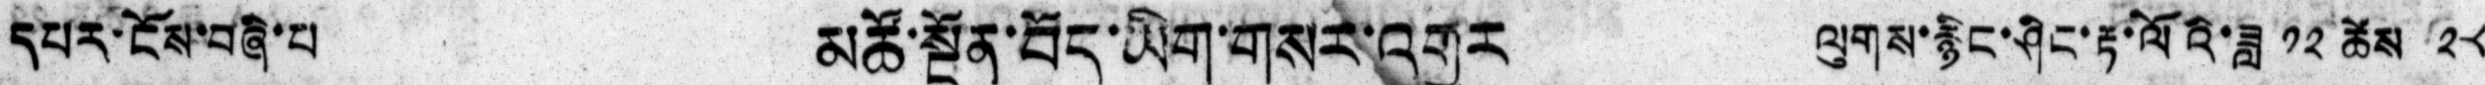དཔར་ངོས་བཞི་པ   མཚོ་སྔོན་བོད་ཡིག་གསར་འགྱུར  ལུགས་རྙིང་ཤིང་རྟ་ལོའི་ཟླ ༡༢ ཚེས ༢༨
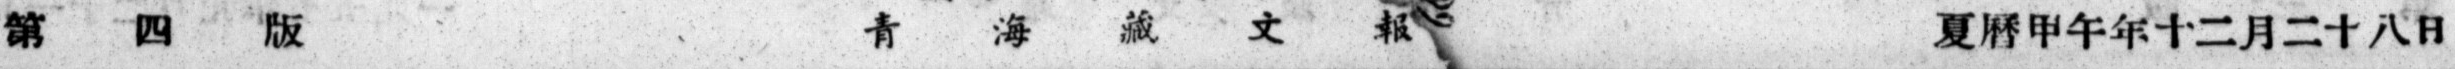第 四 版 青 海 藏 文 報 夏曆甲午年十二月二十八日
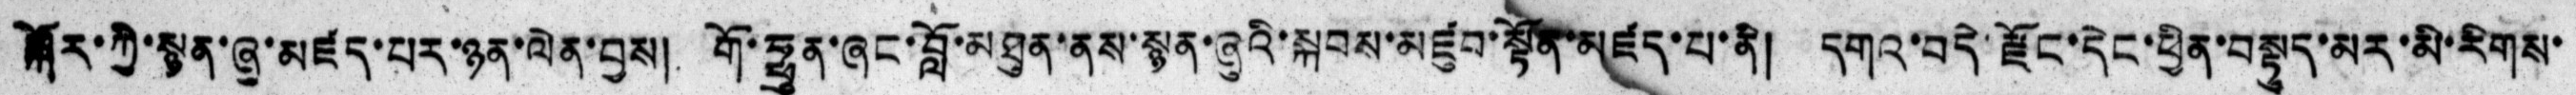སྐོར་ཀྱི་སྙན་ཞུ་མཛད་པར་ཉན་ལེན་བྱས། གོ་ཧྥུན་ཞང་བློ་མཐུན་ནས་སྙན་ཞུའི་སྐབས་མཛུབ་སྟོན་མཛད་པ་ནི། དགའ་བདེ་རྫོང་དེང་ཕྱིན་བསྟུད་མར་མི་རིགས་
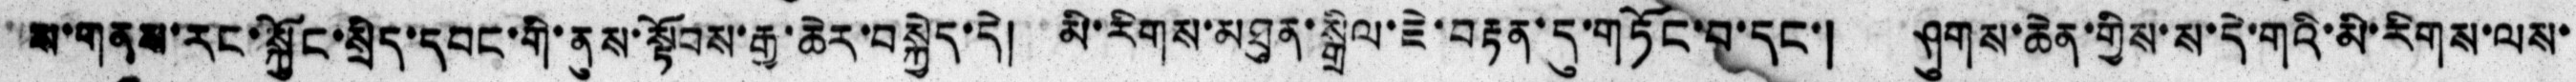ས་གནས་རང་སྐྱོང་སྲིད་དབང་གི་ནུས་སྟོབས་རྒྱ་ཆེར་བསྐྱེད་དེ། མི་རིགས་མཐུན་སྒྲིལ་ཇེ་བརྟན་དུ་གཏོང་བ་དང་། ཤུགས་ཆེན་གྱིས་ས་དེ་གའི་མི་རིགས་ལས་
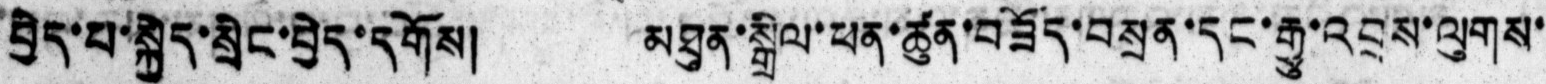བྱེད་པ་སྐྱེད་སྲིང་བྱེད་དགོས། མཐུན་སྒྲིལ་ཕན་ཚུན་བཟོད་བསྲན་དང་རྒྱུ་འབྲས་ལུགས་
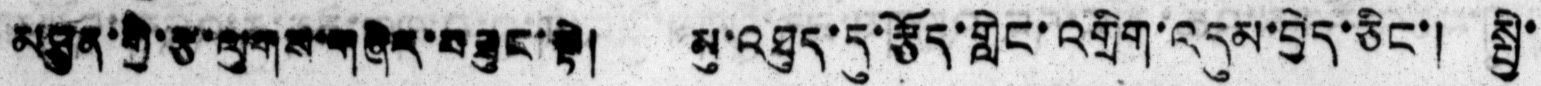མཐུན་གྱི་རྩ་ལུགས་གཞིར་བཟུང་སྟེ། མུ་འཐུད་དུ་རྩོད་གླེང་འགྲིག་འདུམ་བྱེད་ཅིང་། སྤྱི་
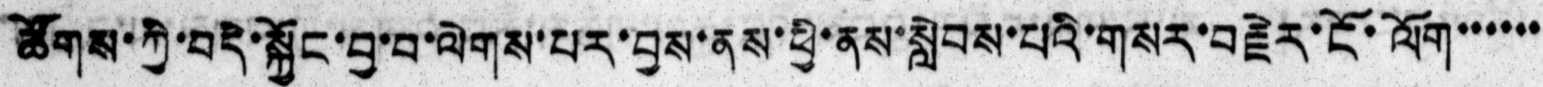ཚོགས་ཀྱི་བདེ་སྐྱོང་བྱ་བ་ལེགས་པར་བྱས་ནས་ཕྱི་ནས་སླེབས་པའི་གསར་བརྗེར་ངོ་ལོག་་་་་་་
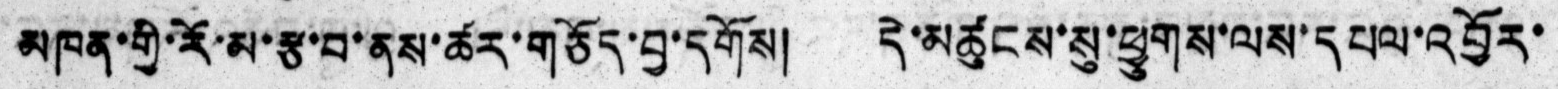མཁན་གྱི་རོ་མ་རྩ་བ་ནས་ཚར་གཅོད་བྱ་དགོས། དེ་མཚུངས་སུ་ཕྱུགས་ལས་དཔལ་འབྱོར་
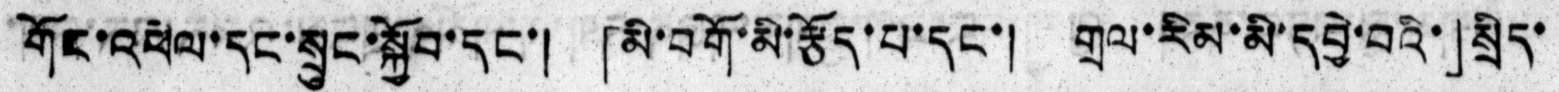གོང་འཕེལ་དང་སྲུང་སྐྱོབ་དང་། 「མི་བགོ་མི་རྩོད་པ་དང་། གྲལ་རིམ་མི་དབྱེ་བའི་」སྲིད་
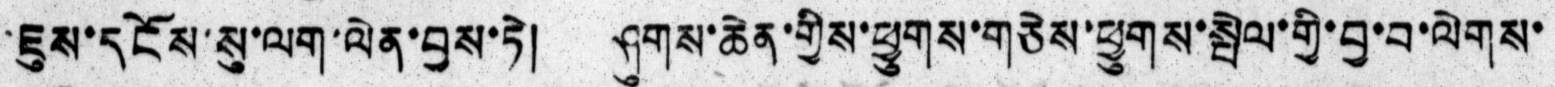ཇུས་དངོས་སུ་ལག་ལེན་བྱས་ཏེ། ཤུགས་ཆེན་གྱིས་ཕྱུགས་གཅེས་ཕྱུགས་སྤེལ་གྱི་བྱ་བ་ལེགས་
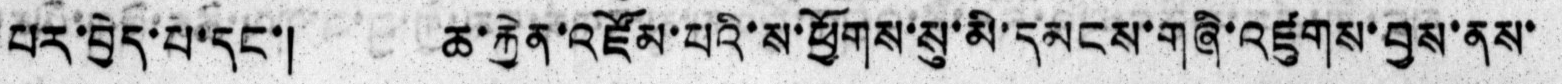པར་བྱེད་པ་དང་། ཆ་རྐྱེན་འཛོམ་པའི་ས་ཕྱོགས་སུ་མི་དམངས་གཞི་འཛུགས་བྱས་ནས་
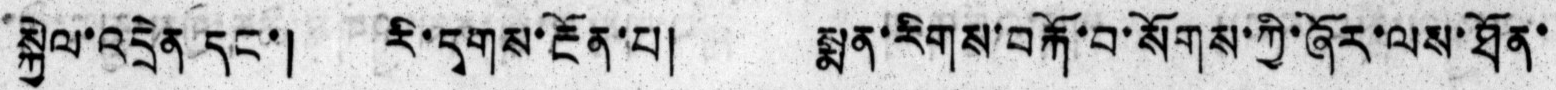སྐྱེལ་འདྲེན དང་། རི་དྭགས་རྔོན་པ། སྨན་རིགས་བརྐོ་བ་སོགས་ཀྱི་ཞོར་ལས་ཐོན་
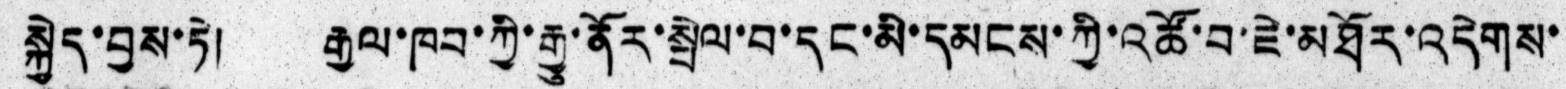སྐྱེད་བྱས་ཏེ། རྒྱལ་ཁབ་ཀྱི་རྒྱུ་ནོར་སྤེལ་བ་དང་མི་དམངས་ཀྱི་འཚོ་བ་ཇེ་མཐོར་འདེགས་
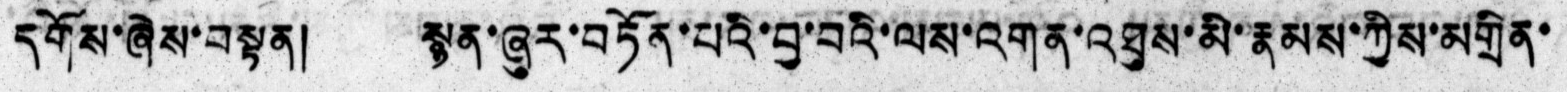དགོས་ཞེས་བསྟན། སྙན་ཞུར་བཏོན་པའི་བྱ་བའི་ལས་འགན་འཐུས་མི་རྣམས་ཀྱིས་མགྲིན་
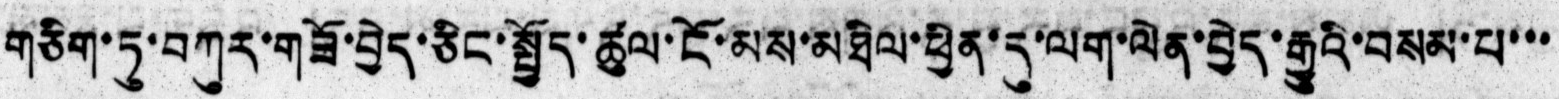གཅིག་ཏུ་བཀུར་གཟོ་བྱེད་ཅིང་སྤྱོད་ཚུལ་ངོ་མས་མཐིལ་ཕྱིན་དུ་ལག་ལེན་བྱེད་རྒྱུའི་བསམ་པ་་་
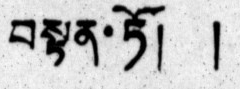བསྟན་ཏོ། །
